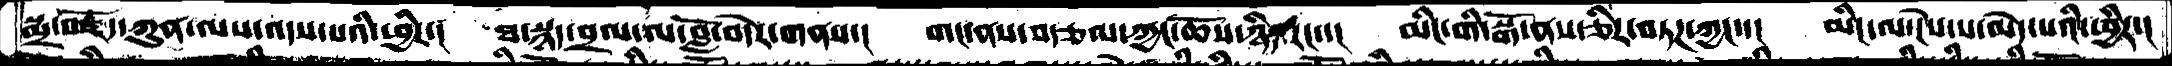སྨྲ་བརྗོད་ཀུན་ལས་འདས་པའི་ཕྱིར་།  ཐ་སྙད་བྲལ་ལ་བློ་བདེར་གནས་།  གང་ནས་བརྩལ་ཀྱང་ཆོས་ཉིད་རང་་།  མིང་གི་སྒོ་ནས་ཅིར་བཏཌ་ཀྱང་་།  མིང་ལ་ངེས་པ་མེད་པའི་ཕྱིར་།
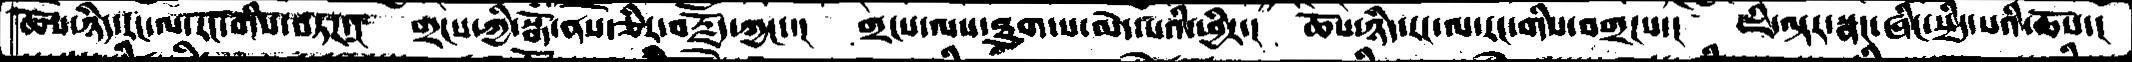ཆོས་ཉིད་རང་ལ་རང་གིས་བཏཌ་།  གྲངས་ཀྱི་སྒོ་ནས་ཅིར་བརྗོད་ཀྱང་་།  གྲངས་ལས་ཐུག་པ་མེད་པའི་ཕྱིར་།  ཆོས་ཉིད་རང་ལ་རང་གིས་བགྲངས་།  ཇི་ལྟར་སྣང་ཞིང་སྲིད་པའི་ཆོས་།
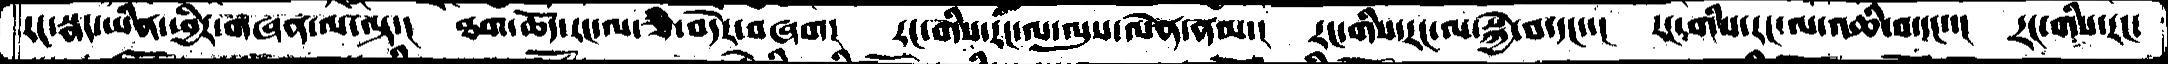རང་སྣང་ཡིན་ཕྱིར་གཞན་ལ་ལྟ་།  ཐག་ཆོད་རང་ལ་ཅི་བདེར་བཞག།  རང་གིས་རང་ལ་ལུས་ལེན་ནམ་།  རང་གིས་རང་ལ་སྐྱེ་བ་དང་་།  རང་གིས་རང་ལ་འཆི་བ་དང་་།  རང་གིས་རང་
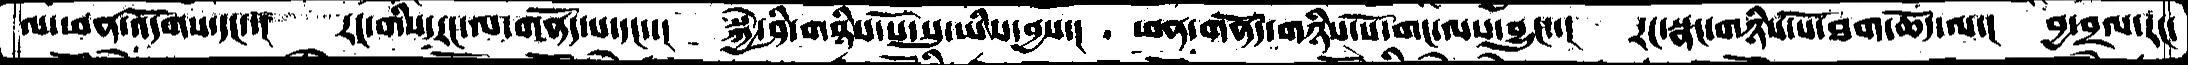ལ་ཕན་འདོགས་དང་་།  རང་གིས་རང་ལ་གནོད་པ་དང་་།  སྐྱེ་ཤི་གཉིས་པོ་སུ་ཡིས་བྱས་།  ཕན་གནོད་གཉིས་པོ་གང་ལས་བྱུང་་།  རང་སྣང་གཉིས་པོ་ཐག་ཆོད་ལ་།  བྱ་བྲལ་རང་
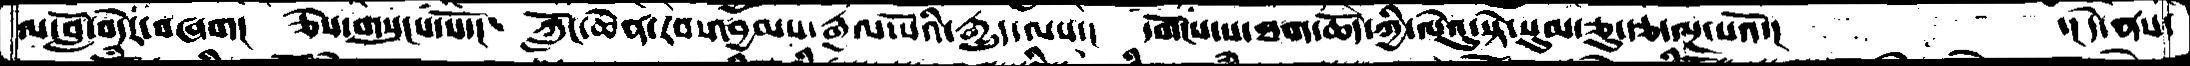ལ་བློ་བདེར་བཞག།  ཅེས་གསུངས་སོ་།  ཀློང་ཆེན་རབ་འབྱམས་རྒྱལ་པོའི་རྒྱུད་ལས་།  དགོངས་པ་ཐག་ཆོད་ཀྱི་ལེའུ་སྟེ་སུམ་ཅུ་རྩ་ལྔ་པའོ་།         ་། དེ་ནས་
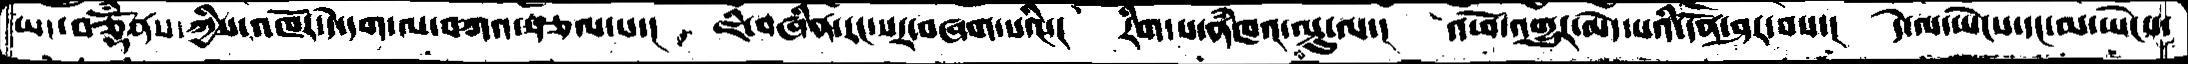ཡང་བཅྡོྃནས་ཀྱིས་འཁོར་དེ་དག་ལ་བཀའ་སྩལ་པ་།  ཇི་བཞིན་རང་སར་བཞག་པའི་།  རིག་པ་ནཾཁའ་ལྟུ་ལ་།  འཕོ་འགྱུར་མེད་པའི་དོན་ཤར་བས་།  དེ་ལ་ཡེངས་དང་མ་ཡེངས་
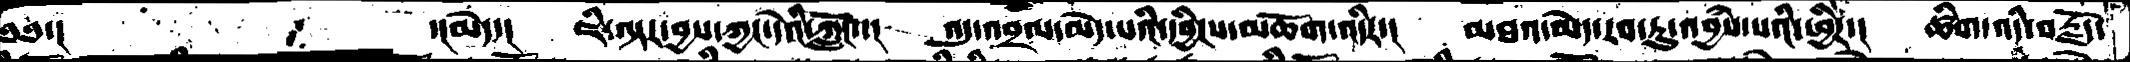༄༅་།་          ་།མེད་།   ཇི་ལྟར་བྱས་ཀྱང་དེའི་ཀློང་་།  འདུ་འབྲལ་མེད་པའི་དབྱིངས་མཆོག་འདིར་།  མཐའ་མེད་རབ་ཏུ་འབྱཾས་པའི་ཕྱིར་།  ཚིག་འདི་བརྗོད་
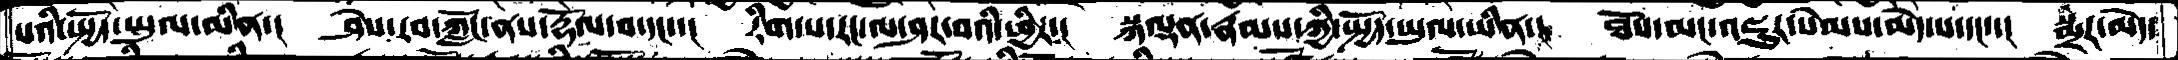པའི་སྤྱོད་ཡུལ་མིན་།  ཤེས་རབ་ཀློང་ནས་རྡོལ་བ་དང་་།  རིག་པ་རང་ལ་ཤར་བའི་ཕྱིར་།  སྐལྡན་རྣམས་ཀྱི་སྤྱོད་ཡུལ་ཡིན་།  ཐོས་མང་འཇུར་སེམས་མེད་པ་དང་་།  སྨྲར་མེད་
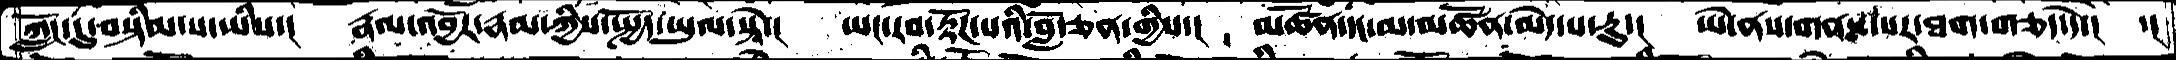ཀློང་དུ་བསྟིམ་པ་ཡིས་།  རྣལ་འབྱོར་རྣམ་ཀྱིས་སྤྱོད་ཡུལ་སྟེ་།  ཡང་རབ་རྟོཌ་པའི་བློ་ཅན་གྱིས་།  མཚོན་དང་མ་མཚོན་མེད་པ་རུ་།  ཡེ་ནས་གནས་པར་ཐག་གཅད་དེ་།  ་།
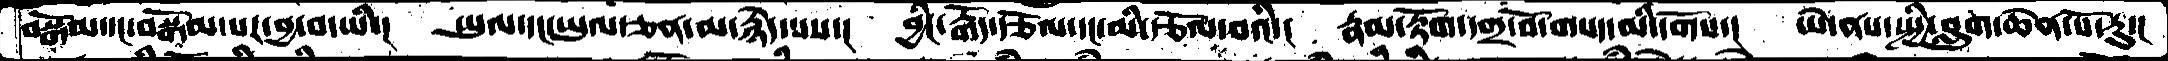བསྒོམ་དང་བསྒོམ་པར་བྱ་བ་ཡི་།  ཡུལ་དང་ཡུལ་ཅན་མ་རྙེད་པས་།  བྱིང་རྒོད་རྩོལ་དང་མི་རྩོལ་བའི་།  རྣམ་རྟོག་དགྲ་བོ་གསད་མི་དགོས་།  ཡེ་ནས་སྤྱི་བླུག་ཆེན་པོ་རུ་།
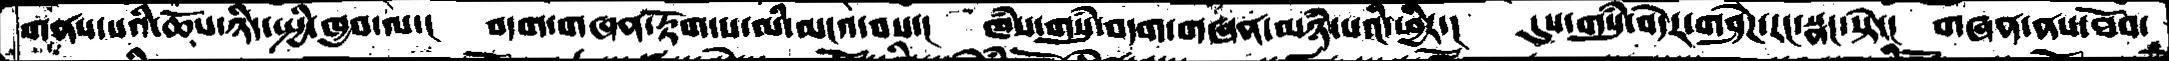གནས་པའི་ཆོས་ཉིད་སྤྱི་ཁྱབ་ལ་། བདག་གཞན་རྟོག་པ་མི་མངའ་བས་།  ཁཾས་གསུམ་བདག་གཞན་མཉཾ་པའི་ཕྱིར་།  དུས་གསུཾ་བདེར་གཤེེཌ་རང་སྣང་སྟེ་།  གཞན་ནས་ཐོབ་
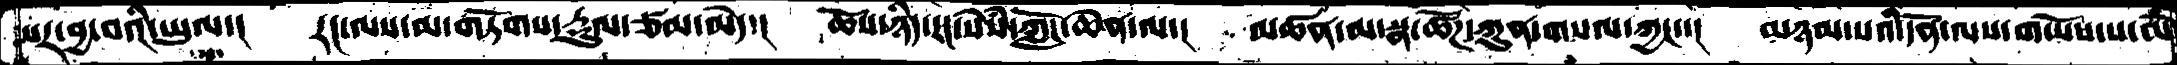པར་བྱ་བའི་ཡུལ་།  རང་ལས་མ་གཏོགས་རྡུལ་ཙམ་མེད་།  ཆོས་ཉིད་རང་སེཾས་ཀློང་ཆེན་ལ་།  མཚན་མ་སྣ་ཚོཌ་ཀུན་གསལ་ཀྱང་་།  མཉམ་པའི་དོན་ལས་གཡོས་པ་མེ
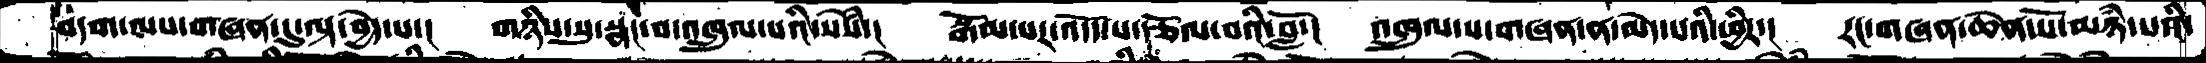བདག་ལས་གཞན་དུ་ལྟ་བྱེད་པ་།  གཉིས་སུ་སྣང་བ་འཁྲུལ་པའི་སེཾས་།  སྒོམ་པར་འདོད་པ་རྩོལ་བའི་བློ་།  འཁྲུལ་པ་གཞན་ན་མེད་པའི་ཕྱིར་།  རང་གཞན་ཆེན་པོ་གཉཾ་པའི་
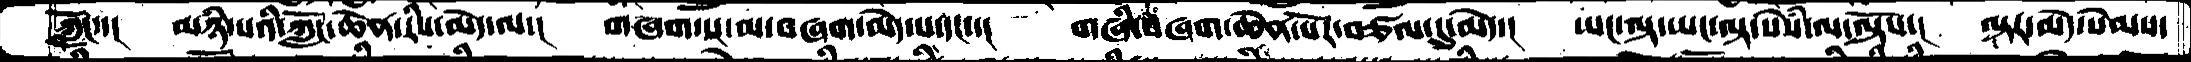ཀློང་་།  མཉཾ་པའི་ཀློང་ཆེན་རིས་མེད་ལ་།  གཞག་དང་མ་བཞག་མེད་པ་དདང་་།  གཞི་བཞག་ཆེན་པར་བཙལ་དུ་མེད་།  ཡང་ལྟ་ཡང་ལྟ་སེཾས་ལ་ལྟོས་།  ལྟར་མེད་སེམས་
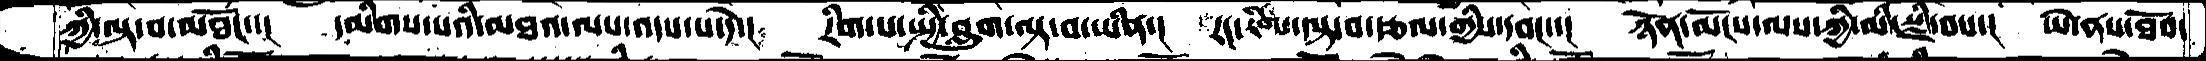ཀྱི་ལྟ་བ་མཐོང་་།  དམིགས་པའི་མཐའ་ལས་འདས་པ་དེ་།  རིག་པ་སྤྱི་བླུག་ལྟ་བ་ཡིན་།  རང་རིག་ལྟ་བ་རྩལ་གྱིས་དབང་་།  ཉོན་མོངས་ལས་ཀྱི་མི་སྫི་བས་།  ཡེ་ནས་ཐོབ་
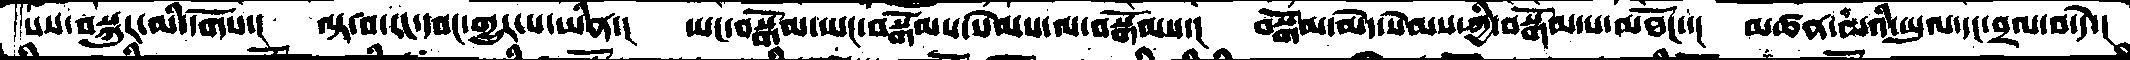པས་བསྐུར་མི་དགོས་།  ལྟ་བ་རང་དབང་གྱུར་པ་ཡིན་།  ཡང་བསྒོམ་ཡང་བསྒོམས་སེམས་ལ་བསྒོམས་།  བསྒོམ་མེད་སེམས་ཀྱི་བསྒོམ་པ་མཐོང་་།  མཚན་མའི་ཡུལ་དང་བྲལ་བ་དེ་།
